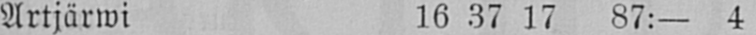Artjärwi 16 37 17 87:— 4 —
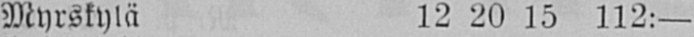Myrskylä 12 20 15 112:— — —
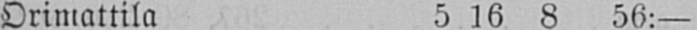Orimattila 5 16 8 56:— — —
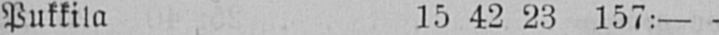Pukkila 15 42 23 157:— — —
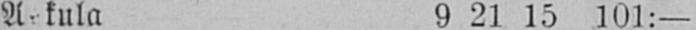A kula 9 21 15 101:— — —
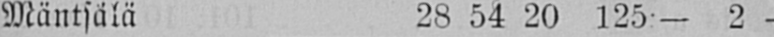Mäntsälä 28 54 20 125:— 2 —
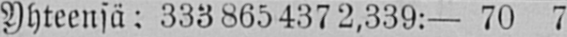Yhteensä: 333 865437 2,339:— 70 7
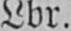Lbr.
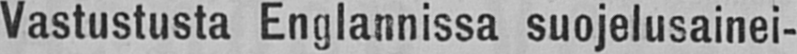Vastustusta Englannissa suojelusainei-
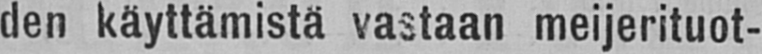den käyttämistä vastaan meijerituot-
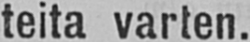teita varten.
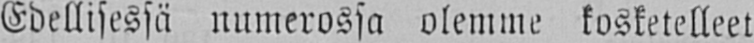Edellisessä numerossa olemme kosketelleet
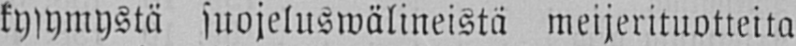kysymystä suojeluswälineistä meijerituotteita
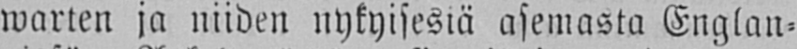warten ja niiden nykyisestä asemasta Englan-
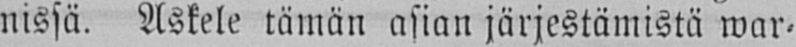nissa Askele tämän asian järjestämistä war-
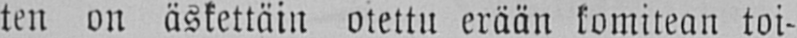ten on äskettäin otettu erään komitean toi-
